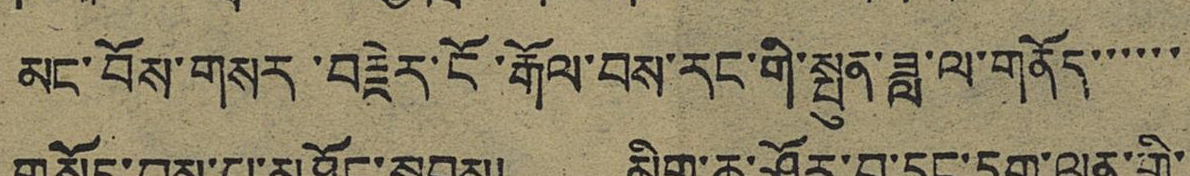མང་བོས་གསར་བརྗེར་ངོ་རྒོལ་བས་རང་གི་སྤུན་ཟླ་ལ་གནོད་་་་་
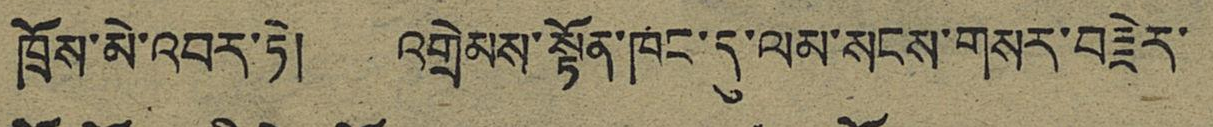ཁྲོས་མེ་འབར་ཏེ། འགྲེམས་སྟོན་ཁང་དུ་ལམ་སངས་གསར་བརྗེར་
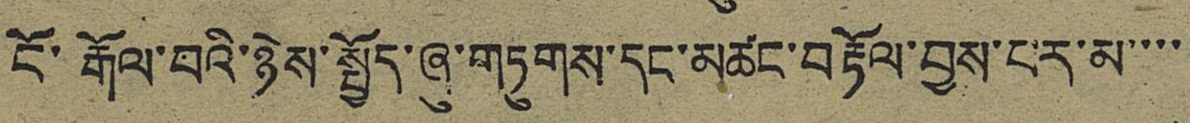ངོ་རྒོལ་བའི་ཉེས་སྤྱོད་ཞུ་གཏུགས་དང་མཚང་བརྟོལ་བྱས་པར་མ་་་་
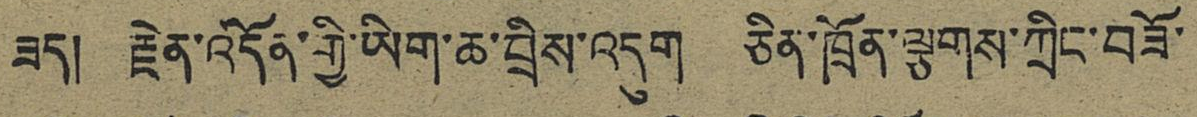ཟད། རྗེན་འདོན་གྱི་ཡིག་ཆ་བྲིས་འདུག ཅིན་ཁྲོན་ལྕགས་ཀྲིང་བཟོ་
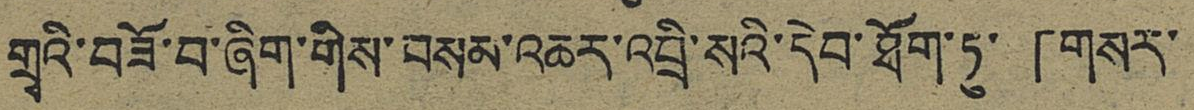གྲྭའི་བཟོ་བ་ཞིག་གིས་བསམ་འཆར་འབྲི་སའི་དེབ་ཐོག་ཏུ་「གསར་
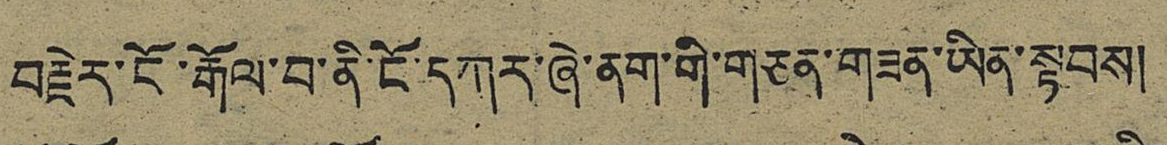བརྗེར་ངོ་རྒོལ་བ་ནི་ངོ་དཀར་ཞེ་ནག་གི་གཅན་གཟན་ཡིན་སྟབས།
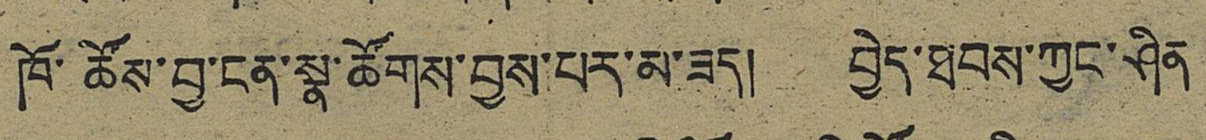ཁོ་ཚོས་བྱ་ངན་སྣ་ཚོགས་བྱས་པར་མ་ཟད། བྱེད་ཐབས་ཀྱང་ཤིན
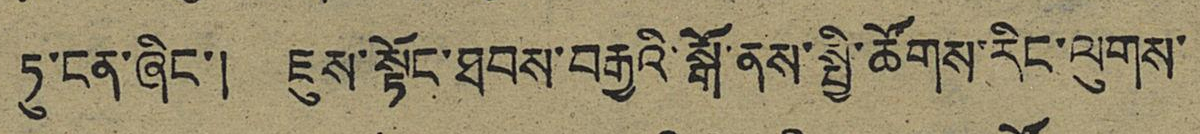ཏུ་ངན་ཞིང་། ཇུས་སྟོང་ཐབས་བརྒྱའི་སྒོ་ནས་སྤྱི་ཚོགས་རིང་ལུགས་
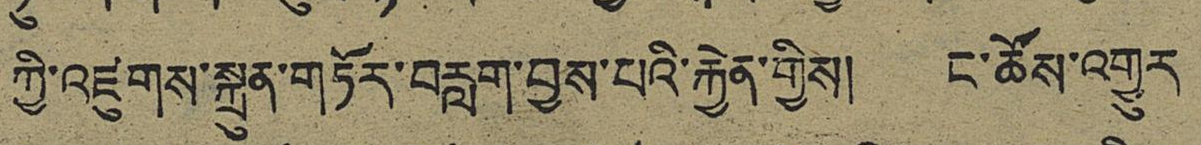ཀྱི་འཛུགས་སྐྲུན་གཏོར་བརླག་བྱས་པའི་རྐྱེན་གྱིས། ང་ཚོས་འགྱུར
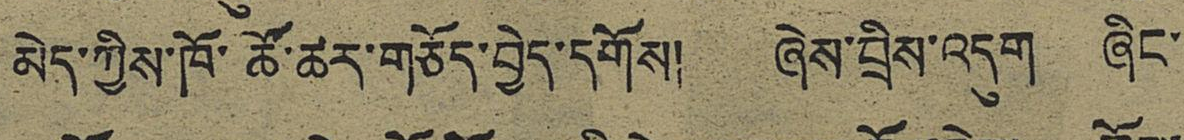མེད་ཀྱིས་ཁོ་ཚོ་ཚར་གཅོད་བྱེད་དགོས། ཞེས་བྲིས་འདུག ཞིང་
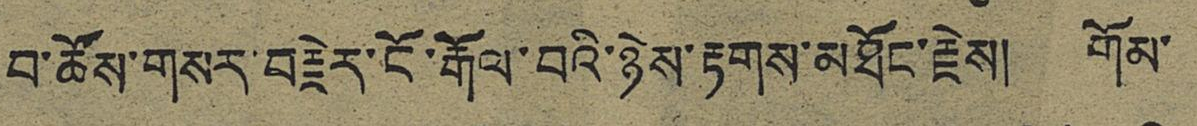བ་ཚོས་གསར་བརྗེར་ངོ་རྒོལ་བའི་ཉེས་རྟགས་མཐོང་རྗེས། གོམ་
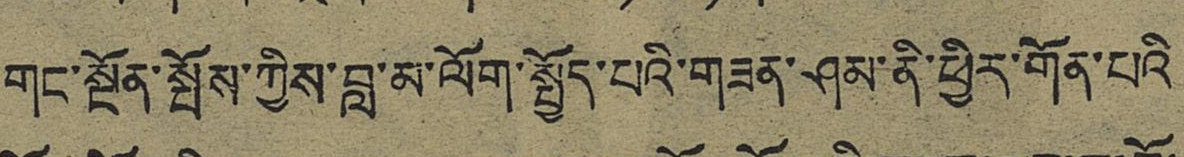གང་སྔོན་སྤོས་ཀྱིས་བླ་མ་ལོག་སྤྱོད་པའི་གཟན་ཤམ་ནི་ཕྱིར་གོན་པའི
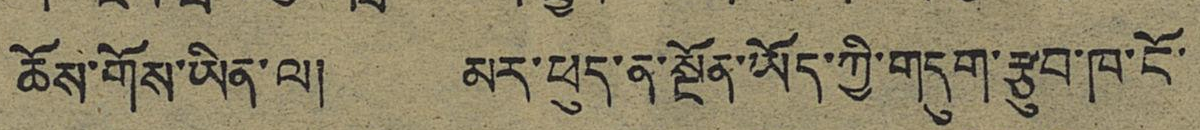ཆོས་གོས་ཡིན་ལ། མར་ཕུད་ན་སྔོན་ཡོད་ཀྱི་གདུག་རྩུབ་ཁ་ངོ་
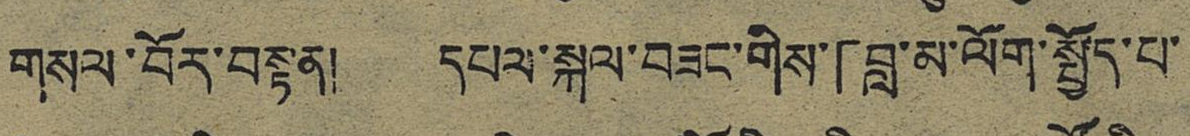གསལ་བོར་བསྟན། དཔལ་སྐལ་བཟང་གིས་「བླ་མ་ལོག་སྤྱོད་པ་
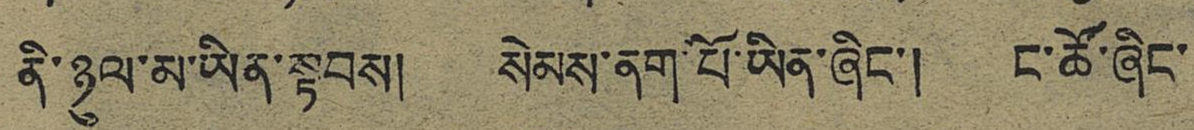ནི་ཉུལ་མ་ཡིན་སྟབས། སེམས་ནག་པོ་ཡིན་ཞིང་། ང་ཚོ་ཞིང་
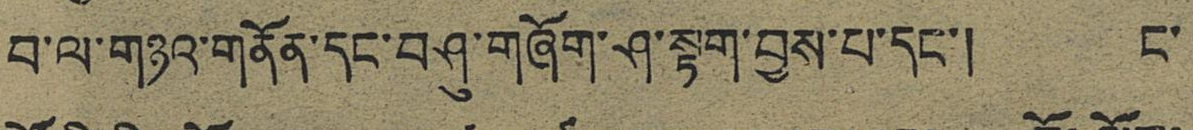བ་ལ་གཉའ་གནོན་དང་བཤུ་གཞོག་ཤ་སྟག་བྱས་པ་དང་། ང་
